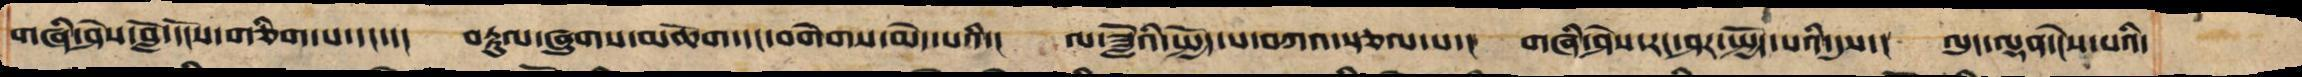གཞི་ཤེས་བློ་དངོས་གཅིག་པ་དང་།  བརྟུལ་ཞུགས་མཆོག་དང་བགེགས་མེད་པའི་།  ལ་ཟློའི་སྤྱོད་པ་བཀའ་སྩལ་པ་།  གཞི་ཤེས་རང་ཤར་སྤྱོད་པའི་དུས་།  ལུང་ལྡན་ངེས་པའི་
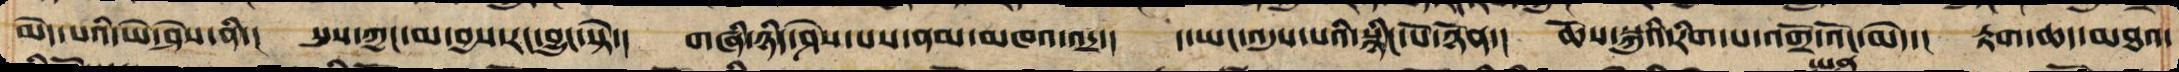མེད་པའི་ཡེ་ཤེས་ནི་།   སུས་ཀྱང་མ་བྱས་རང་བྱུང་སྟེ་།  གཞི་ཉིད་ཤེས་པས་ནམ་མཁའ་འདྲ་།   ད་ཡང་འདུས་པའི་སྙིང་པོ་ཉོན་།  ཆོས་སྐུའི་རིག་པ་འགྲོ་འོང་མེད་།  རྟག་ཆད་མཐའ་
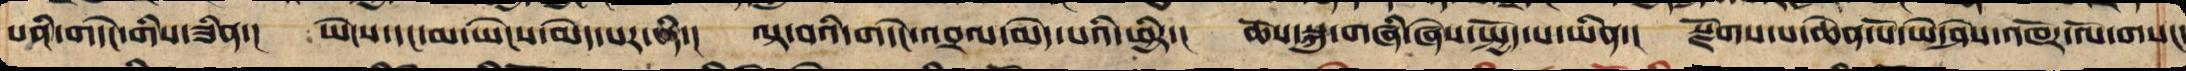པའི་གདེང་གིས་ཟིན་།   ཡེངས་དང་མ་ཡེངས་མེད་པར་ནི་།  ལྟ་བའི་གདེང་འབྲལ་མེད་པའི་ཕྱིར་།  ཆོས་སྐུ་གཞི་ཞེས་སྤྱོད་པ་ཡིན་།  སྫོགས་པ་ཆེན་པོ་ཡེ་ཤེས་འཁོར་ལོ་གསང་
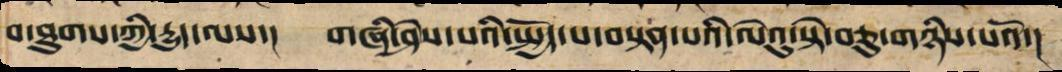བ་ཐུགས་ཀྱི་རྒྱུད་ལས་།   གཞི་ཤེས་པའི་སྤྱོད་པ་བསྟན་པའི་ལེའུ་སྟེ་བཅུ་གཉིས་པའོ་།།
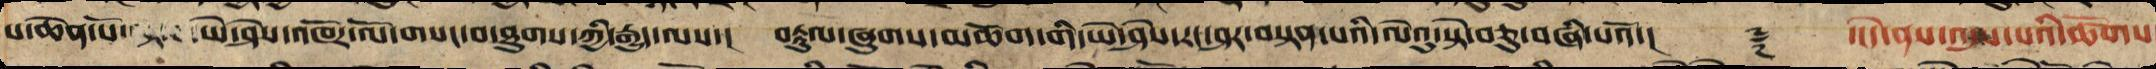པ་ཆེན་པོ་ལྟ་བ་ཡེ་ཤེས་འཁོར་ལོ་གསང་བ་ཐུགས་ཀྱི་རྒྱུད་ལས། བརྟུལ་ཞུགས་མཆོག་གི་ཡེ་ཤེས་རང་ཤར་བསྟན་པའི་ལེའུ་སྟེ་བཅུ་བཞི་པའོ།། ༈ ་་དེ་ནས་འདུས་པའི་ཚོགས་
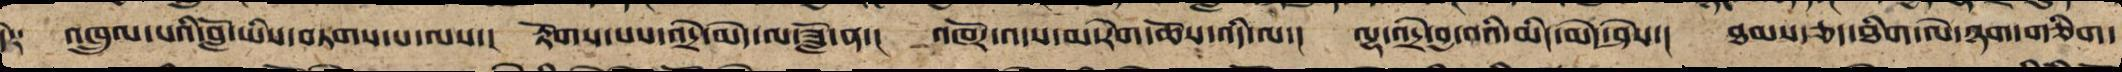དེ། །འཁྲུལ་པའི་བློ་ཡིས་བཏགས་པ་ལས་། རྟོག་པས་འདྲེ་མེད་ལ་ཟློ་ན་། འཁོར་འདས་མ་རིག་ཆོས་འདི་ལ་། ལྷ་འདྲེ་བྱ་བའི་མིང་མེད་ཤེས་། ཐམས་ཅད་ཐིག་ལེ་ཉག་གཅིག་
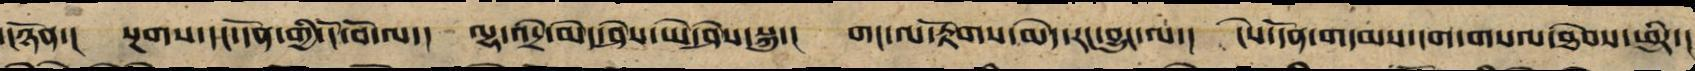།ཉོན་།  སྔགས་དང་དོན་གྱི་ངོ་བོ་ལ་།   ལྷ་འདྲེ་མེད་ཤེས་ཡེ་ཤེས་སྐུ་།   གང་ལ་རྟོགས་མེད་རང་བྱུང་ལ་།  ངེས་དོན་གདམས་ངག་གསལ་ཐེབས་ཕྱིར་།
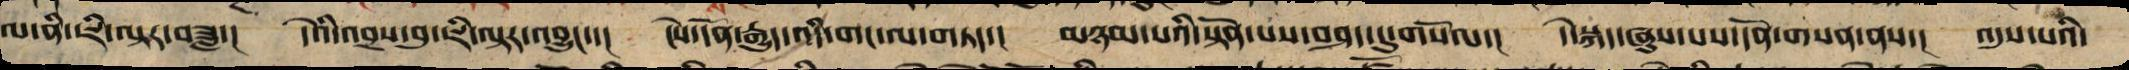ལ་ནི་ཇི་ལྟར་བཟླ་།   དེའི་འབྲས་བུ་ཇི་ལྟར་འབྱུང་་།   ངེས་དོན་རྒྱུད་འདི་གང་ལ་གཏད་།   མཉམ་པའི་སྟོན་པས་བཤད་དུ་གསོལ་།   དེ་སྐད་ཞུས་པས་དོན་གསན་ནས་།   འདུས་པའི་
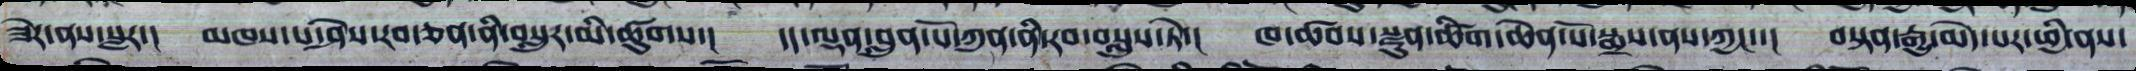ཟེར་ནས་སླར་།  མཁས་པ་ཤེས་རབ་ཅན་ནི་བསླུར་མི་ཚུགས་།  དད་ལྡན་བླུན་པོ་ཀུན་ནི་རབ་བསླུས་ཏེ་།  ཁ་ཚབས་སྫུན་ཚིག་ཆེན་པོ་སྨྲས་ནས་ཀྱང་་།  བསྟན་རྒྱུ་མེད་པར་ཕྱི་ནས་
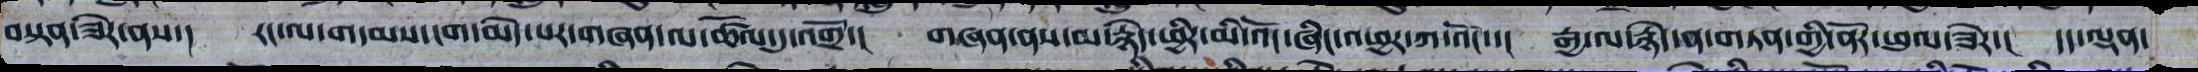བསྟན་ཟེར་ནས་།  རང་ལ་གདམས་ངག་མེད་པར་གཞན་ལ་ཚོལ་དུ་འགྲོ་།  གཞན་ནས་མ་རྙེད་ཕྱིར་མི་འོང་ཞིང་འཕྱར་ཀ་འོང་་།   རྒྱ་ལ་རྙེད་ན་གཏན་གྱི་ནོར་ཕུལ་ཟེར་།  དད་ལྡན་
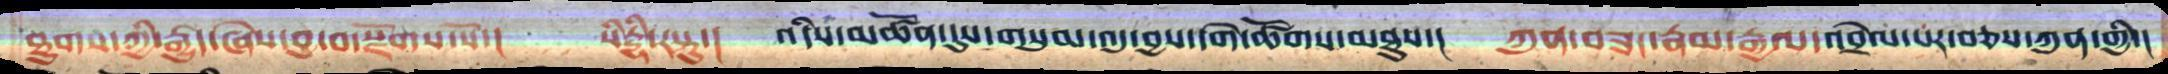ཐུགས་ཀྱི་རྒྱུད་ཞེས་བྱ་བ་སྫོགས་སོ་།    སིདྡྷི་རསྟུ།   འདིས་མཚོན་དུས་གསུམ་འདུ་བྱས་དགེ་ཚོགས་མཐུས་།   ཀུན་བཟང་རྣམ་རྒྱལ་འབྲེལ་པར་བཅས་ཀུན་གྱི་།
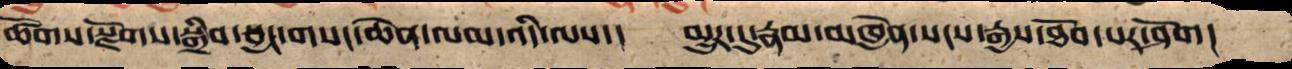ཚོགས་སྫོགས་སྒྲིབ་སྦྱང་གསང་ཆེན་ལམ་འདི་ལས་།   མྱུར་དུ་རྣམ་མཁྱེན་སངས་རྒྱས་ཐོབ་པར་ཤོག།
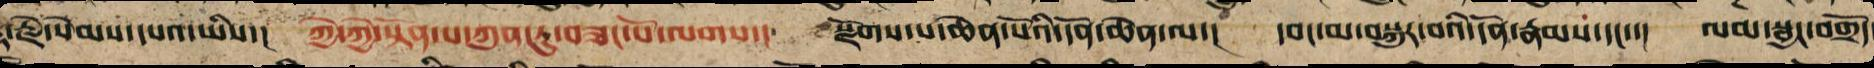རྡོ་རྗེ་སེམས་དཔའ་ཡིས་།  ཀྱེ་ཀྱེ་སྟོན་པ་ཀུན་ཏུ་བཟང་པོ་ལགས་།  སྫོགས་པ་ཆེན་པོའི་དོན་ཆེན་ལ་།  དབང་མ་བསྐུར་བའི་དོན་རྣམས་དང་།  ལམ་སྦྱང་བགྲོད
